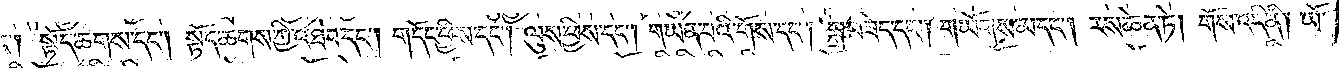དང༌། སྟོད་ཆགས་དང༌། སྟོད་ཆགས་ཀྱི་འཐེབ་དང༌། གདོང་ཕྱིས་དང༌། ལུས་ཕྱིས་དང༌། གཡན་པའི་གོས་དང༌། སྐྲ་བཟེད་དང༌། གཡོགས་མ་དང༌། རས་ཆེན་ཏེ། གོས་འདི་ནི། ཡོ་
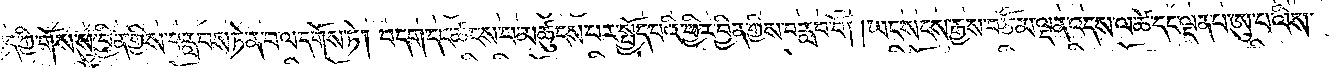བྱད་ཀྱི་གོས་སུ་བྱིན་གྱིས་བརླབས་ཏེ་ན་བ་ལ་དགོས་ཏེ། བདག་དང་ཚངས་པ་མཚུངས་པར་སྤྱོད་པའི་ཕྱིར་བྱིན་གྱིས་བརླབ་བོ། །ཡང་སངས་རྒྱས་བཅོམ་ལྡན་འདས་ལ་ཚེ་དང་ལྡན་པ་ཨུ་པ་ལིས་
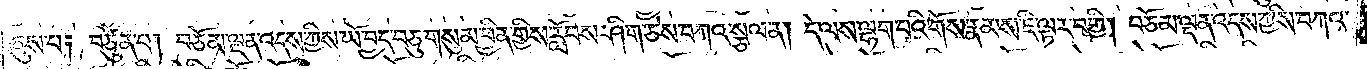ཞུས་པ༑ བཙུན་པ། བཅོམ་ལྡན་འདས་ཀྱིས་ཡོ་བྱད་བཅུ་གསུམ་བྱིན་གྱིས་རློབས་ཤིག་ཅེས་བཀའ་སྩལ་ན། དེ་ལས་ལྷག་པའི་གོས་རྣམས་ཇི་ལྟར་བགྱི། བཅོམ་ལྡན་འདས་ཀྱིས་བཀའ་
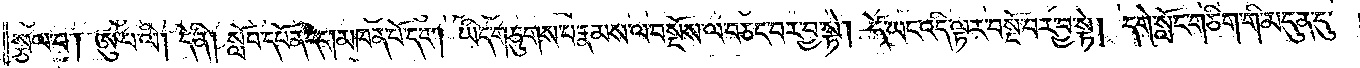སྩལ་པ། ཨུ་པ་ལི། དེ་ནི། སློབ་དཔོན་དང༌། །མཁན་པོ་དང༌། ཡིད་གཅུགས་པ་རྣམས་ལ་བསྔོས་ལ་བཅང་བར་བྱ་སྟེ། དེ་ཡང་འདི་ལྟར་བསྔོ་བར་བྱ་སྟེ། དགེ་སློང་གཅིག་གི་མདུན་དུ་
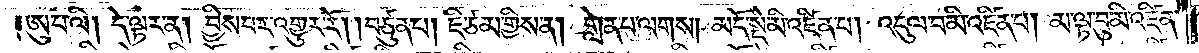ཨུ་པ་ལི། དེ་ལྟར་ན། བྱིས་པར་འགྱུར་རོ། །བཙུན་པ། ཇི་ཙམ་གྱིས་ན། གླེན་པ་ལགས། མདོ་སྡེ་མི་འཛིན་པ། འདུལ་བ་མི་འཛིན་པ། མ་ལྟ་བུ་མི་འཛིན་
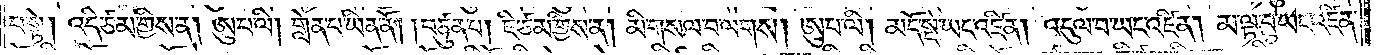པ་སྟེ། འདི་ཙམ་གྱིས་ན། ཨུ་པ་ལི། གླེན་པ་ཡིན་ན། །བཙུན་པ། ཇི་ཙམ་གྱིས་ན། མི་གསལ་བ་ལགས། །ཨུ་པ་ལི། མདོ་སྡེ་ཡང་འཛིན། འདུལ་བ་ཡང་འཛིན། མ་ལྟ་བུ་ཡང་འཛིན་
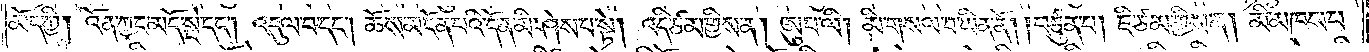མོད་ཀྱི། འོན་ཀྱང་མདོ་སྡེ་དང༌། འདུལ་བ་དང༌། ཆོས་མངོན་པའི་དོན་མི་ཤེས་པ་སྟེ། འདི་ཙམ་གྱིས་ན། ཨུ་པ་ལི། མི་གསལ་བ་ཡིན་ནོ། །བཙུན་པ། ཇི་ཙམ་གྱིས་ན། མི་མཁས་པ་
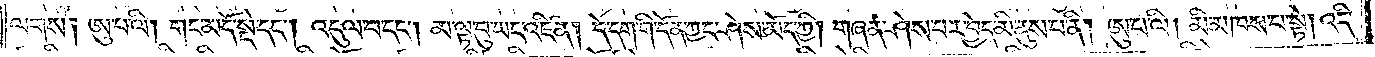ལགས༑ ཨུ་པ་ལི། གང་མདོ་སྡེ་དང༌། འདུལ་བ་དང༌། མ་ལྟ་བུ་ཡང་འཛིན། དེ་དག་གི་དོན་ཀྱང་ཤེས་མོད་ཀྱི། གཞན་ཤེས་པར་བྱེད་མི་ནུས་པ་ནི། ཨུ་པ་ལི། མི་མཁས་པ་སྟེ། འདི་
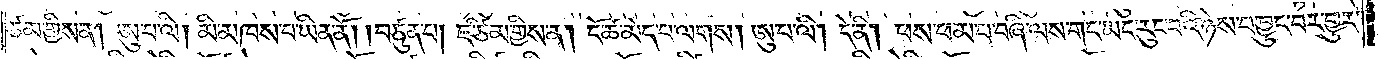ཙམ་གྱིས་ན། ཨུ་པ་ལི། མི་མཁས་པ་ཡིན་ནོ། །བཙུན་པ། ཇི་ཙམ་གྱིས་ན། ངོ་ཚ་མེད་པ་ལགས། ཨུ་པ་ལི། དེ་ནི། ཕས་ཕམ་པ་བཞི་ལས་གང་ཡང་རུང་བའི་ཉེས་པ་བྱུང་བར་གྱུར་
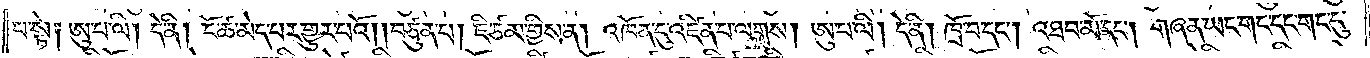པ་སྟེ༑ ཨུ་པ་ལི། དེ་ནི། ངོ་ཚ་མེད་པར་གྱུར་པའོ། །བཙུན་པ། ཇི་ཙམ་གྱིས་ན། འཁོན་དུ་འཛིན་པ་ལགས། ཨུ་པ་ལི། དེ་ནི། ཁྲོ་བ་དང༌། འཐབ་མོ་དང༌། །གཞན་ཡང་གང་དང་གང་དུ་
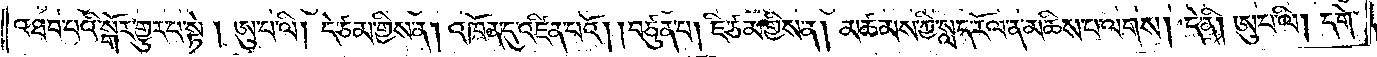འཐབ་པའི་སྒོར་གྱུར་པ་སྟེ། ཨུ་པ་ལི། དེ་ཙམ་གྱིས་ན། འཁོན་དུ་འཛིན་པའོ། །བཙུན་པ། ཇི་ཙམ་གྱིས་ན། མཚམས་ཀྱི་སླད་རོལ་ན་མཆིས་པ་ལགས། དེ་ནི། ཨུ་པ་ལི། དགེ་
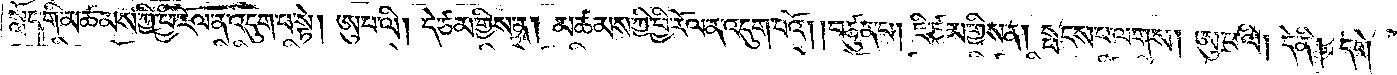སློང་གི་མཚམས་ཀྱི་ཕྱི་རོལ་ན་འདུག་པ་སྟེ། ཨུ་པ་ལི། དེ་ཙམ་གྱིས་ན། མཚམས་ཀྱི་ཕྱི་རོལ་ན་འདུག་པའོ། །བཙུན་པ༑ ཇི་ཙམ་གྱིས་ན། སྤངས་པ་ལགས། ཨུ་པ་ལི། དེ་ནི། དགེ་
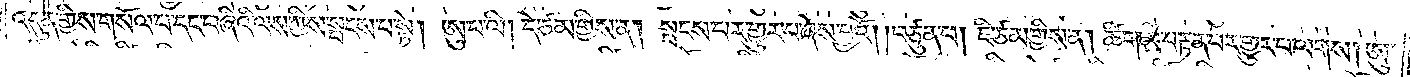འདུན་གྱིས་གསོལ་པ་དང་བཞིའི་ལས་ཀྱིས་སྤངས་པ་སྟེ། ཨུ་པ་ལི། དེ་ཙམ་གྱིས་ན། སྤངས་པར་གྱུར་པ་ཞེས་བྱའོ། །བཙུན་པ། ཇི་ཙམ་གྱིས་ན། ཚིག་མི་བརྟན་པར་གྱུར་པ་ལགས། ཨུ་
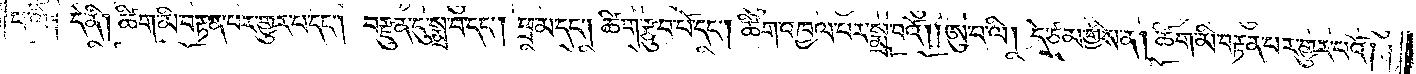པ་ལི༑ དེ་ནི། ཚིག་མི་བརྟན་པར་གྱུར་པ་དང༌། བརྫུན་དུ་སྨྲ་བ་དང༌། ཕྲ་མ་དང༌། ཚིག་རྩུབ་པོ་དང༌། ཚིག་འཁྱལ་པར་སྨྲ་བའོ། །ཨུ་པ་ལི། དེ་ཙམ་གྱིས་ན། ཚིག་མི་བརྟན་པར་གྱུར་པའོ། །
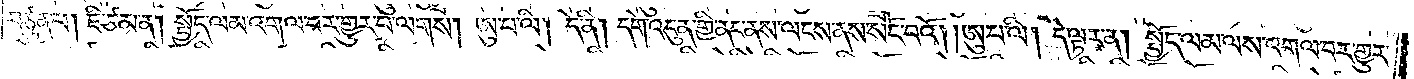བཙུན་པ། ཇི་ཙམ་ན། སྤྱོད་ལམ་འགལ་བར་གྱུར་བ་ལགས། ཨུ་པ་ལི། དེ་ནི། དགེ་འདུན་གྱི་ནང་ནས་ལངས་ནས་སོང་བའོ། །ཨུ་པ་ལི། དེ་ལྟར་ན། སྤྱོད་ལམ་ལས་འགལ་བར་གྱུར་
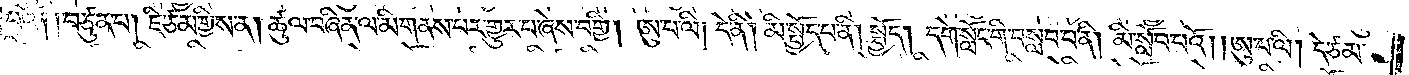པའོ༑ ༑བཙུན་པ། ཇི་ཙམ་གྱིས་ན། ཚུལ་བཞིན་ལ་མི་གནས་པར་གྱུར་པ་ཞེས་བགྱི། ཨུ་པ་ལི། དེ་ནི། མི་སྤྱོད་པ་ནི། སྤྱོད། དགེ་སློང་གི་བསླབ་པ་ནི། མི་སློབ་པའོ། །ཨུ་པ་ལི། དེ་ཙམ་
